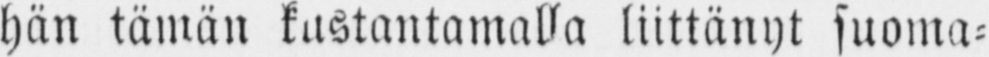hän tämän kustantamalla liittänyt suoma-
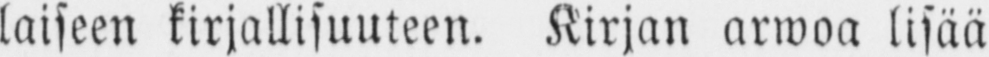laiseen kirjallisuuteen. Kirjan arwoa lisää
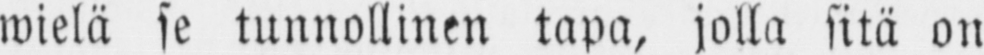wielä se tunnollinen tapa, jolla sitä on
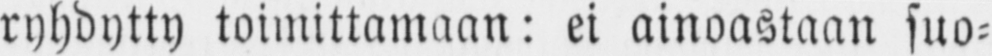ryhdytty toimittamaan: ei ainoastaan suo-
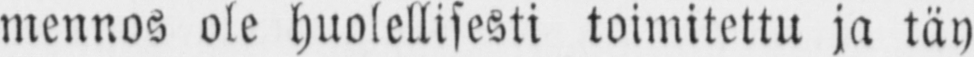mennos ole huolellisesti toimitettu ja täy-
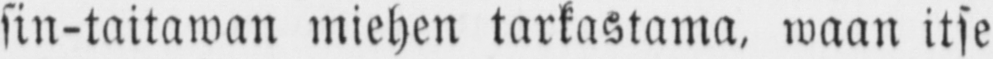sin-taitawan miehen tarkastama, waan itse
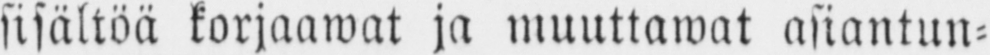sisältöä korjaawat ja muuttawat asiantun-
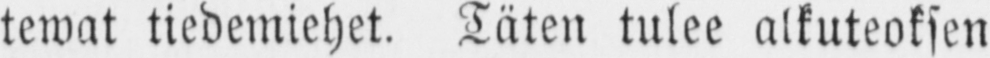tewat tiedemiehet. Täten tulee alkuteoksen
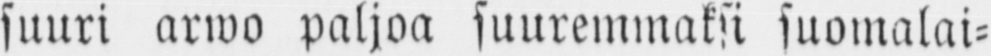suuri arwo paljoa suuremmaksi suomalai-
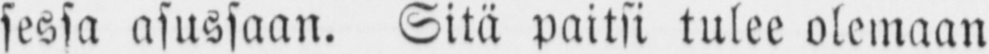sessa asussaan. Sitä paitsi tulee olemaan
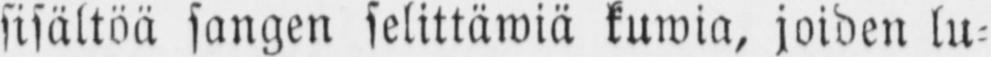sisältöä sangen selittäwiä kuwia, joiden lu-
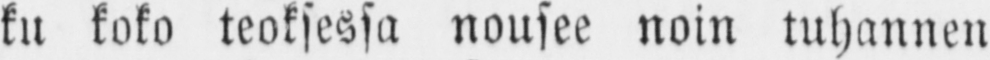ku koko teoksessa nousee noin tuhannen
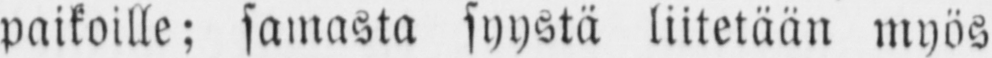paikoille; samasta syystä liitetään myös
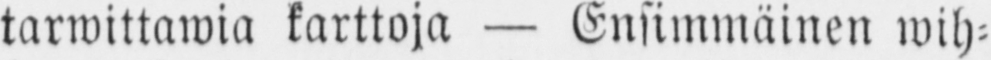tarwittawia karttoja — Ensimmäinen wih-
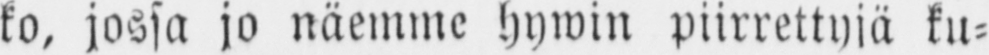ko, jossa jo näemme hywin piirrettyjä ku-
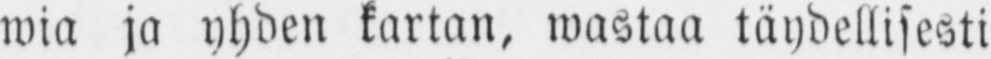wia ja yhden kartan, wastaa täydellisesti
